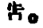告。
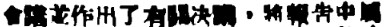會議並作出了有關決議，將報告中屬
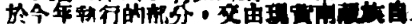於今年執行的部分，交由現黃南藏族自
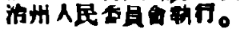治州人民委員會執行。
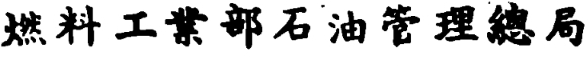燃料工業部石油管理總局
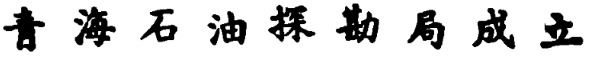青 海 石 油 探 勘 局 成 立
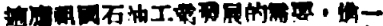適應祖國石油工業發展的需要，進一
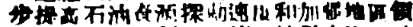步提高石油資源探勘速度和加強地區領
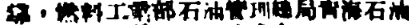導，燃料工業部石油管理總局靑海石油
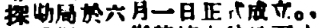探勘局於六月一日正式成立。
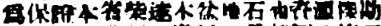爲保證本省柴達木盆地石油資源探勘
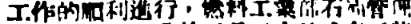工作的順利進行，燃料工業部石油管理
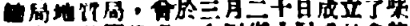總局地質局，曾於三月二十日成立了柴
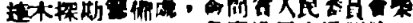達木探勘籌備處，會同省人民委員會柴
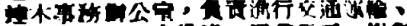達木事務辦公室，負責進行交通運輸、
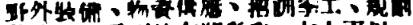野外裝備、物資供應、招訓季工、規劃
